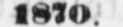1870.
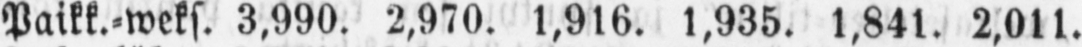Paikk.-weks. 3,990. 2,970. 1,916. 1,935. 1,841. 2,011.
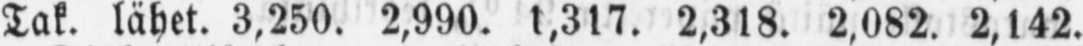Tak. lähet. 3,250. 2,990. 1,317. 2,318. 2,082. 2,142.
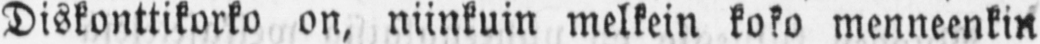Diskonttikorko on, niinkuin melkein koko menneenkin
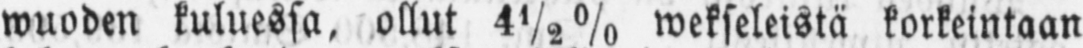wuoden kuluessa, ollut 4½% wekseleistä korkeintaan
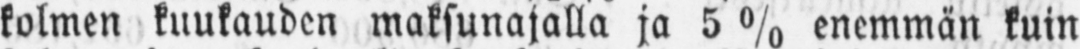kolmen kuukauden maksunajalla ja 5% enemmän kuin
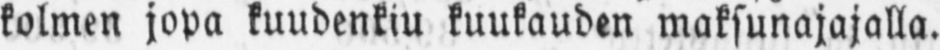kolmen jopa kuudenkiu kuukauden maksunajajalla.
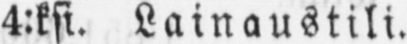4:ksi. Lainaustili.
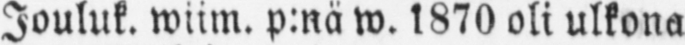Jouluk. wiim. p:nä w. 1870 oli ulkona
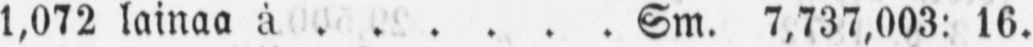1,072 lainaa à Sm. 7,737,003: 16.
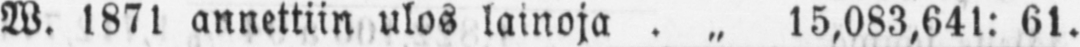W. 1871 annettiin ulos lainoja „ 15,083,641: 61.
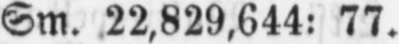Sm. 22,829,644: 77.
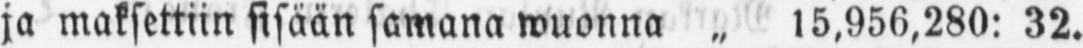ja maksettiin sisään samana wuonna „ 15,956,280: 32.
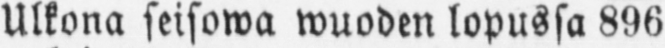Ulkona seisowa wuoden lopussa 896
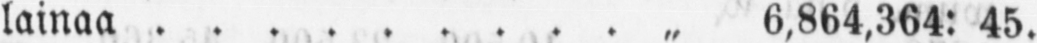lainaa „ 6,864,364: 45.
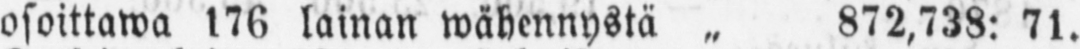osoittawa 176 lainan wähennystä „ 872,738: 71.
